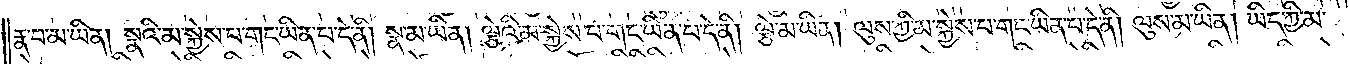རྣ་བ་མ་ཡིན། སྣའི་མ་སྐྱེས་པ་གང་ཡིན་པ་དེ་ནི། སྣ་མ་ཡིན། ལྕེའི་མ་སྐྱེས་པ་གང་ཡིན་པ་དེ་ནི། ལྕེ་མ་ཡིན། ལུས་ཀྱི་མ་སྐྱེས་པ་གང་ཡིན་པ་དེ་ནི། ལུས་མ་ཡིན། ཡིད་ཀྱི་མ་
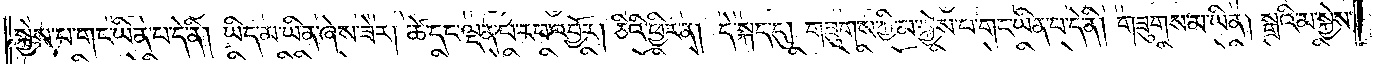སྐྱེས་པ་གང་ཡིན་པ་དེ་ནི། ཡིད་མ་ཡིན་ཞེས་ཟེར། ཚེ་དང་ལྡན་པ་རབ་འབྱོར། ཅིའི་ཕྱིར་ན། དེ་སྐད་དུ། གཟུགས་ཀྱི་མ་སྐྱེས་པ་གང་ཡིན་པ་དེ་ནི། གཟུགས་མ་ཡིན། སྒྲའི་མ་སྐྱེས་
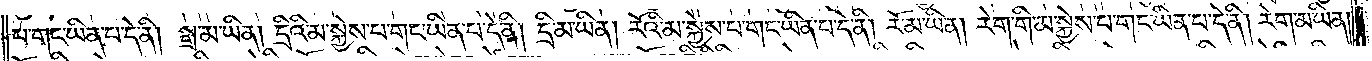པ་གང་ཡིན་པ་དེ་ནི། སྒྲ་མ་ཡིན། དྲིའི་མ་སྐྱེས་པ་གང་ཡིན་པ་དེ་ནི། དྲི་མ་ཡིན། རོའི་མ་སྐྱེས་པ་གང་ཡིན་པ་དེ་ནི། རོ་མ་ཡིན། རེག་གི་མ་སྐྱེས་པ་གང་ཡིན་པ་དེ་ནི། རེག་མ་ཡིན།
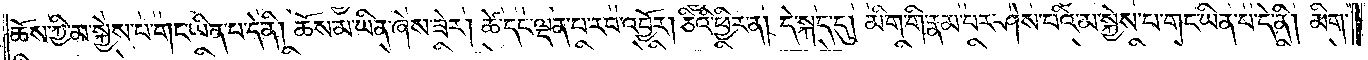ཆོས་ཀྱི་མ་སྐྱེས་པ་གང་ཡིན་པ་དེ་ནི། ཆོས་མ་ཡིན་ཞེས་ཟེར། ཚེ་དང་ལྡན་པ་རབ་འབྱོར། ཅིའི་ཕྱིར་ན། དེ་སྐད་དུ། མིག་གི་རྣམ་པར་ཤེས་པའི་མ་སྐྱེས་པ་གང་ཡིན་པ་དེ་ནི། མིག་
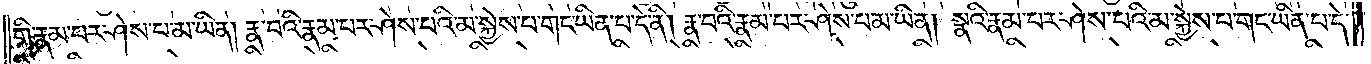གི་རྣམ་པར་ཤེས་པ་མ་ཡིན། རྣ་བའི་རྣམ་པར་ཤེས་པའི་མ་སྐྱེས་པ་གང་ཡིན་པ་དེ་ནི། རྣ་བའི་རྣམ་པར་ཤེས་པ་མ་ཡིན། སྣའི་རྣམ་པར་ཤེས་པའི་མ་སྐྱེས་པ་གང་ཡིན་པ་དེ་
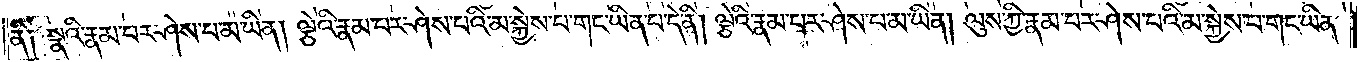ནི། སྣའི་རྣམ་པར་ཤེས་པ་མ་ཡིན། ལྕེའི་རྣམ་པར་ཤེས་པའི་མ་སྐྱེས་པ་གང་ཡིན་པ་དེ་ནི། ལྕེའི་རྣམ་པར་ཤེས་པ་མ་ཡིན། ལུས་ཀྱི་རྣམ་པར་ཤེས་པའི་མ་སྐྱེས་པ་གང་ཡིན་
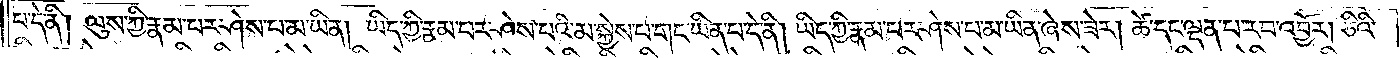པ་དེ་ནི། ལུས་ཀྱི་རྣམ་པར་ཤེས་པ་མ་ཡིན། ཡིད་ཀྱི་རྣམ་པར་ཤེས་པའི་མ་སྐྱེས་པ་གང་ཡིན་པ་དེ་ནི། ཡིད་ཀྱི་རྣམ་པར་ཤེས་པ་མ་ཡིན་ཞེས་ཟེར། ཚེ་དང་ལྡན་པ་རབ་འབྱོར། ཅིའི་
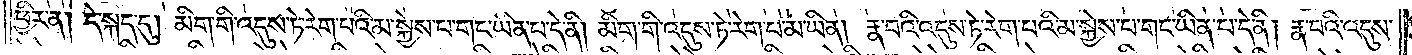ཕྱིར་ན། དེ་སྐད་དུ། མིག་གི་འདུས་ཏེ་རེག་པའི་མ་སྐྱེས་པ་གང་ཡིན་པ་དེ་ནི། མིག་གི་འདུས་ཏེ་རེག་པ་མ་ཡིན། རྣ་བའི་འདུས་ཏེ་རེག་པའི་མ་སྐྱེས་པ་གང་ཡིན་པ་དེ་ནི། རྣ་བའི་འདུས་
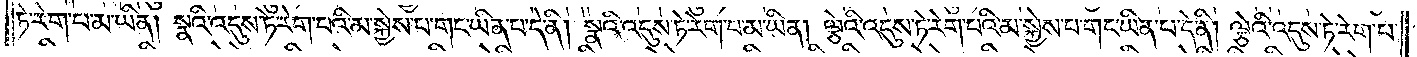ཏེ་རེག་པ་མ་ཡིན། སྣའི་འདུས་ཏེ་རེག་པའི་མ་སྐྱེས་པ་གང་ཡིན་པ་དེ་ནི། སྣའི་འདུས་ཏེ་རེག་པ་མ་ཡིན། ལྕེའི་འདུས་ཏེ་རེག་པའི་མ་སྐྱེས་པ་གང་ཡིན་པ་དེ་ནི། ལྕེའི་འདུས་ཏེ་རེག་པ་
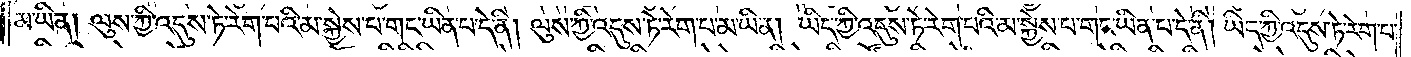མ་ཡིན། ལུས་ཀྱི་འདུས་ཏེ་རེག་པའི་མ་སྐྱེས་པ་གང་ཡིན་པ་དེ་ནི། ལུས་ཀྱི་འདུས་ཏེ་རེག་པ་མ་ཡིན། ཡིད་ཀྱི་འདུས་ཏེ་རེག་པའི་མ་སྐྱེས་པ་གང་ཡིན་པ་དེ་ནི། ཡིད་ཀྱི་འདུས་ཏེ་རེག་པ་
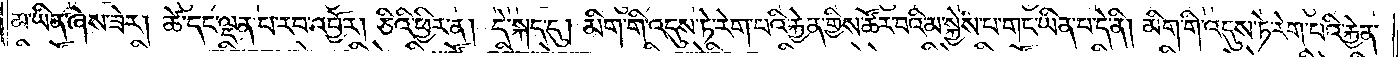མ་ཡིན་ཞེས་ཟེར། ཚེ་དང་ལྡན་པ་རབ་འབྱོར། ཅིའི་ཕྱིར་ན། དེ་སྐད་དུ། མིག་གི་འདུས་ཏེ་རེག་པའི་རྐྱེན་གྱིས་ཚོར་བའི་མ་སྐྱེས་པ་གང་ཡིན་པ་དེ་ནི། མིག་གི་འདུས་ཏེ་རེག་པའི་རྐྱེན་
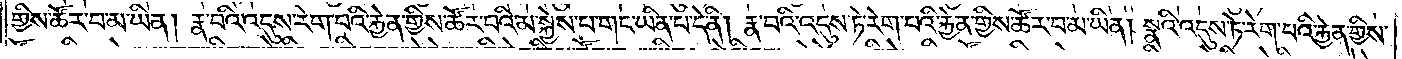གྱིས་ཚོར་བ་མ་ཡིན། རྣ་བའི་འདུས་ཏེ་རེག་པའི་རྐྱེན་གྱིས་ཚོར་བའི་མ་སྐྱེས་པ་གང་ཡིན་པ་དེ་ནི། རྣ་བའི་འདུས་ཏེ་རེག་པའི་རྐྱེན་གྱིས་ཚོར་བ་མ་ཡིན། སྣའི་འདུས་ཏེ་རེག་པའི་རྐྱེན་གྱིས་
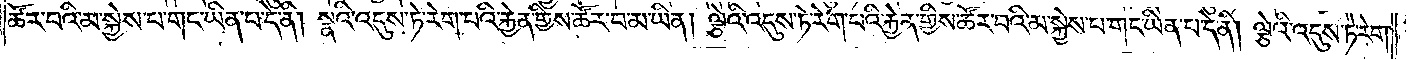ཚོར་བའི་མ་སྐྱེས་པ་གང་ཡིན་པ་དེ་ནི། སྣའི་འདུས་ཏེ་རེག་པའི་རྐྱེན་གྱིས་ཚོར་བ་མ་ཡིན། ལྕེའི་འདུས་ཏེ་རེག་པའི་རྐྱེན་གྱིས་ཚོར་བའི་མ་སྐྱེས་པ་གང་ཡིན་པ་དེ་ནི། ལྕེའི་འདུས་ཏེ་རེག་
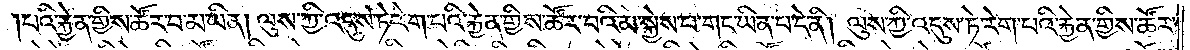པའི་རྐྱེན་གྱིས་ཚོར་བ་མ་ཡིན། ལུས་ཀྱི་འདུས་ཏེ་རེག་པའི་རྐྱེན་གྱིས་ཚོར་བའི་མ་སྐྱེས་པ་གང་ཡིན་པ་དེ་ནི། ལུས་ཀྱི་འདུས་ཏེ་རེག་པའི་རྐྱེན་གྱིས་ཚོར་
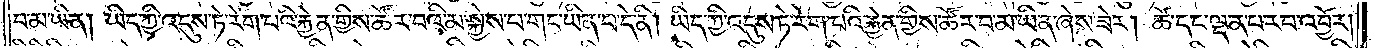བ་མ་ཡིན། ཡིད་ཀྱི་འདུས་ཏེ་རེག་པའི་རྐྱེན་གྱིས་ཚོར་བའི་མ་སྐྱེས་པ་གང་ཡིན་པ་དེ་ནི། ཡིད་ཀྱི་འདུས་ཏེ་རེག་པའི་རྐྱེན་གྱིས་ཚོར་བ་མ་ཡིན་ཞེས་ཟེར། ཚེ་དང་ལྡན་པ་རབ་འབྱོར།
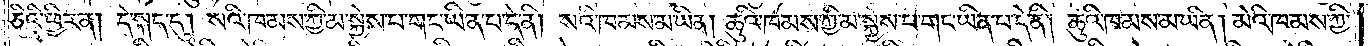ཅིའི་ཕྱིར་ན། དེ་སྐད་དུ། སའི་ཁམས་ཀྱི་མ་སྐྱེས་པ་གང་ཡིན་པ་དེ་ནི། སའི་ཁམས་མ་ཡིན། ཆུའི་ཁམས་ཀྱི་མ་སྐྱེས་པ་གང་ཡིན་པ་དེ་ནི། ཆུའི་ཁམས་མ་ཡིན། མེའི་ཁམས་ཀྱི་
